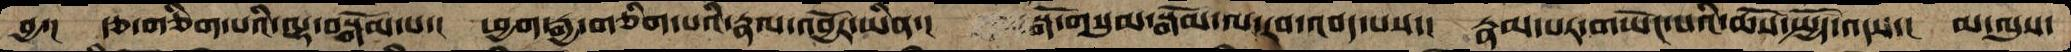བྱ་།  རྩ་གཅིག་པའི་ལྷ་བསྒོམ་པ་།  ཕྱག་རྒྱ་གཅིག་པའི་རྣལ་འབྱོར་ཡིན་།    སྒོ་གསུམ་སྒོམ་ལ་རབ་འབད་པས་།  རྣམ་པར་གཡེང་པའི་ཆོས་སྤྱོད་འདས་།   མ་ལུས་
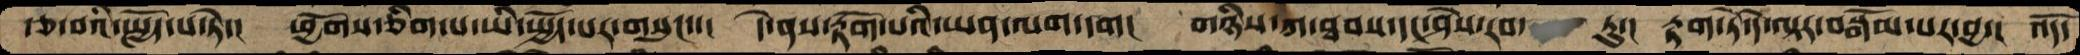རྩ་བའི་སྤྱོད་པ་ཏེ་།  ཕྱོགས་ཅིག་པ་ཡི་སྤྱོད་པར་གསུང་་།  དེ་ནས་རྟོག་པའི་ཡན་ལག་དག།  གཉིས་ཀ་ཐབས་དང་ཤེས་རབ་   ཏུ་།  རྟག་ཏེ་དེ་ལྟར་བསྒོམ་པར་བྱ་།  འོད་
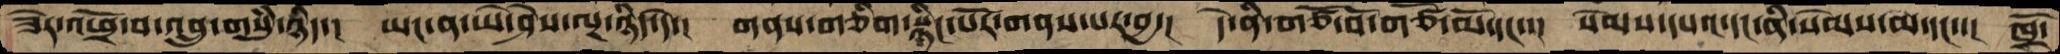ཟེར་འཕྲོ་བ་འབྲུ་གསུཾ་ཉིད་།  ཡང་ན་ཡེ་ཤེས་ལྔ་ཉིད་དེ་།  གནས་གཅིག་སྙིང་པོར་གནས་པར་བྱ་།  དེ་ནི་གཙོ་བོ་གཙོ་མོ་དང་་།  སེམས་དཔའ་དང་ནི་སེམས་མ་དང་་།  ཁྲོ་
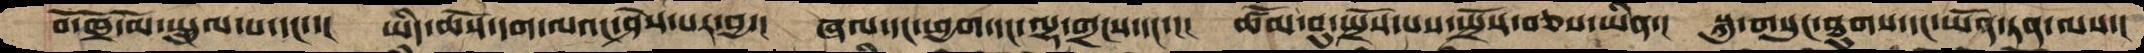བོ་ཁྲོ་མོ་སྤྲུལ་པ་དང་་།  ཡིད་ཆོས་དག་ལའང་ཤེས་པར་བྱ་།  ཞལ་དང་ཕྱག་དང་ལྷ་གྲངས་དང་།།།   ཚོམ་བུ་སྤྲོས་པས་སྤྲོས་བཅས་ཡིན་།  སྐུ་གསུང་ཐུགས་དང་ཡོན་ཏན་ལས་།
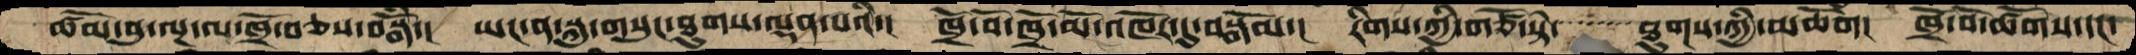ཚོམ་བུ་ལྔ་ལ་ཁྲོ་བཅས་བསྒོཾ་།   ཡང་ན་སྐུ་གསུང་ཐུགས་ལྡན་པའི་།  ཁྲོ་བོ་ཁྲོ་མོ་འཁོར་དུ་བསྒོམ་།  རིགས་ཀྱི་གཙོ་སྟེ་་་་་་་ཐུགས་ཀྱི་མཆོག།  ཁྲོ་བོ་ཚོགས་དང་
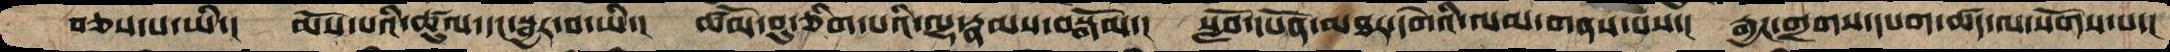བཅས་པ་ཡི་།  མོས་པའི་ཚུལ་དང་སྦྱར་བ་ཡི་།  ཚོམ་བུ་ཅིག་པའི་ལྷ་རྣམས་བསྒོམ་།  སློབ་དཔོན་མཐར་དགེའི་ལམ་གནས་པས་།  རྒྱང་གྲགས་དཔག་ཚད་ལ་སོགས་པ་།
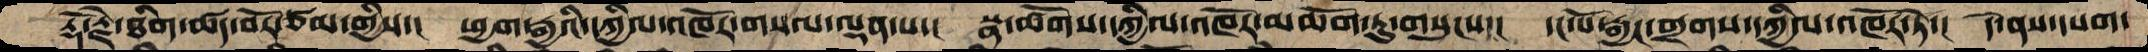རྡོ་རྗེ་ཐིག་ཚད་བོར་ཙམ་གྱིས་།  ཕྱག་རྒྱའི་དཀྱིལ་འཁོར་གསལ་ལྡན་པ་།  སྣ་ཚོགས་དཀྱིལ་འཁོར་མཆོག་ཏུ་གསུངས་།  དང་པོ་རྒྱང་གྲགས་དཀྱིལ་འཁོར་ཏེ་།  དེ་ནས་དཔག་
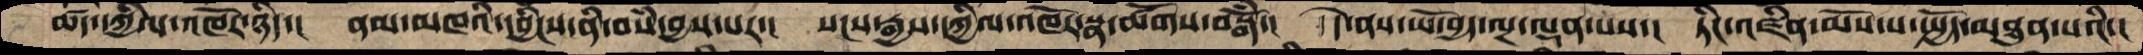ཚད་དཀྱིལ་འཁོར་ཉིད་།  ནམ་མཁའི་དབྱིངས་ནི་བསཾ་བྱས་པར་།  སངས་རྒྱས་དཀྱིལ་འཁོར་སྣ་ཚོགས་བསྒོཾ་།   དེ་ནས་ཡོ་བྱད་ལྔ་ལྡན་པས་།  ཏིང་འཛིན་མོས་པ་སྤྱོད་མཐུན་པའི་།
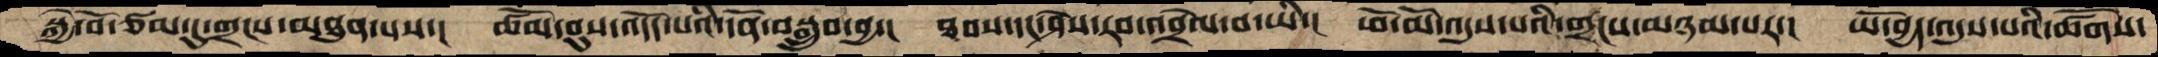སྐྱེ་བོ་ཙམ་དུ་གྲངས་མཐུན་པས་།  ཚོམ་བུས་འདོད་པའི་དོན་བསྒྲུབ་བྱ་།  ཐབས་དང་ཤེས་རབ་འབྲེལ་བ་ཡི་།  ཕོ་མོ་འདུས་པའི་གྲངས་མཉམ་པར་།  ཡོ་བྱད་འདུས་པའི་ཚོགས་
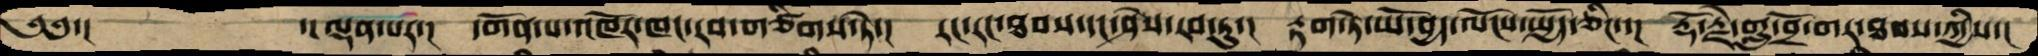༄༅་།       ་།ལྡན་པར་།  དགོན་པ་འཁོར་ཁང་རབ་གཙིགས་ཏེ་།  རང་རང་ཐབས་དང་ཤེས་རབ་ཏུ་།  རྟག་ཏེ་ཡོ་བྱད་ལོངས་སྤྱོད་ཅིང་།  རྡོ་རྗེ་གླུ་བྲོ་གར་ཐབས་ཀྱིས་།
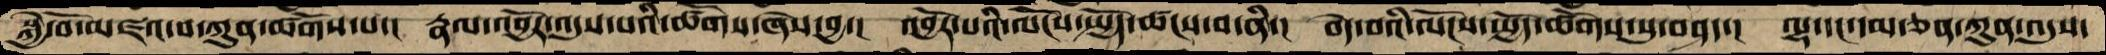སྐྱེ་བོ་མཛའ་བ་ཀུན་ཚོགས་པ་།  རྣལ་འབྱོར་འདུས་པའི་ཚོགས་ཞེས་བྱ་།  འབྱོར་པའི་ལོངས་སྤྱོད་ཚངས་བ་ནི་།  བདེ་བའི་ལོངས་སྤྱོད་ཚོགས་སུ་བཤད་།  ལྷ་དང་དམ་ཅན་ཀུན་འདུས་
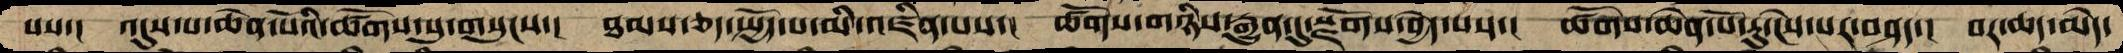པས་།  འདུས་པ་ཆེན་པོའི་ཚོགས་སུ་གསུངས་།  ཐམས་ཅད་སྤྱོད་པ་མི་འཛིན་པས་།  ཚོགས་གཉིས་རྒྱུན་དུ་སྫོགས་བྱེད་པས་།  ཚོགས་ཆེན་པོ་རུ་ངེས་པར་བཤད་།  བར་ཆད་མེད་
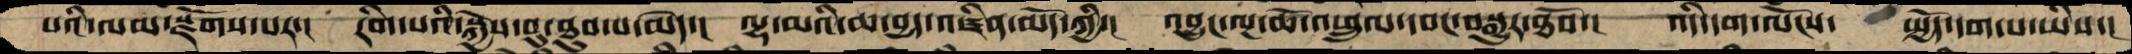པའི་ལམ་སྫོགས་པར་།  རིག་པའི་སྐྱེས་བུ་ཐུབ་པ་མེད་།  ལྷ་མའི་ཆ་བྱད་འཛིན་མོད་ཀྱི་།  འབྱུང་ལྔ་ཆོ་འཕྲུལ་དབང་བསྒྱུར་ཐོབ་།  འདི་དག་ལོངས་   སྤྱོད་དག་པ་ཡིས་།
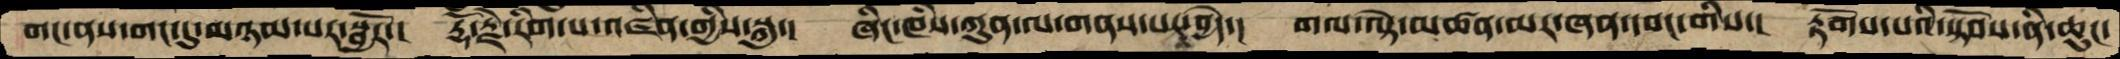གང་ནས་གང་དུ་མཉམ་པར་སྦྱོར་།  རྡོ་རྗེ་རིག་པ་འཛིན་གྱིས་སྐུ་།  ཞིང་ཁཾས་ཀུན་ལ་གནས་པར་བྱེད་།  གལ་ལྟེ་མཚན་མར་ཞན་དབང་གིས་།  རྟོགས་པའི་སྟོབས་ནི་ཆུང་
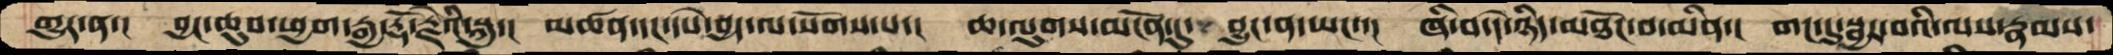གྱུར་ན།  བྱང་ཆུབ་ཕྱག་རྒྱ་རྡོ་རྗེའི་སྐུ་།  མཚན་དང་དཔེ་བྱད་ལ་སོགས་པ་།  ཆ་ལུགས་མངོན་དུ་ བྱུང་ན་ཡང་་།  ཞི་བ་དེ་ཉིད་མཐོང་བ་ཡིན་།  གང་དུ་སྦྱར་བའི་ལས་རྣམས་
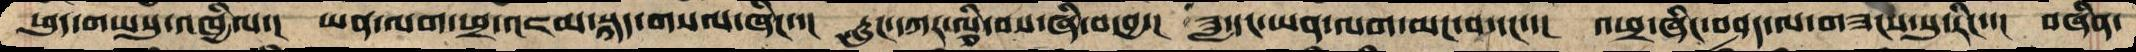ཕུད་གཡསུ་འཁྱིལ་།  ཡན་ལག་ཕྲ་འཇམ་སྐད་གསལ་ཞིང་་།  རླུང་དཀར་ལྕི་བས་ཞི་བ་བྱ་།  ཟླ་དང་ཡན་ལག་མང་བ་དང་་།  འཕྲ་ཞིང་བཤད་ལ་གཟངས་སུ་རིང་་།  བཞིན་
